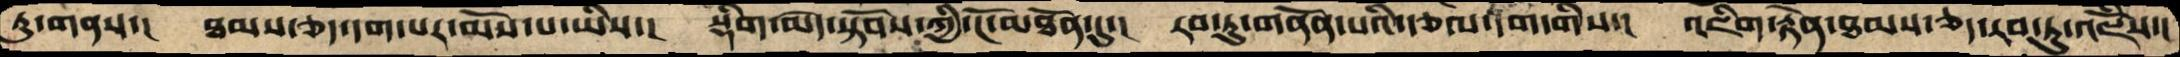ཏུ་གནས་།  ཐམས་ཅད་དག་པར་མོས་པ་ཡིས་།  སྡིག་མེད་སྟོབས་ཀྱི་ངོ་མཐོན་དུ་།  རབ་དུ་གནོན་པའི་རྩལ་དག་གིས་།  འཇིག་རྟེན་ཐམས་ཅད་རབ་ཏུ་འཇོཾས་།
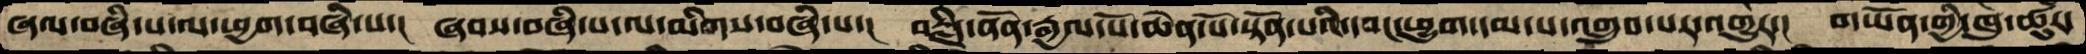ཞལ་བཞི་པ་ལ་ཕྱག་བཞི་པ་།  ཞབས་བཞི་པ་ལ་མིགས་བཞི་པ་།  བརྗིད་ནོན་རྒྱལ་པོ་ཆེན་པོ་སྟོན་པའི་དབང་ཕྱུག་དམ་པ་འགྲུབ་པར་འགྱུར་།  གཡོན་གྱི་ཁུ་ཚུར་
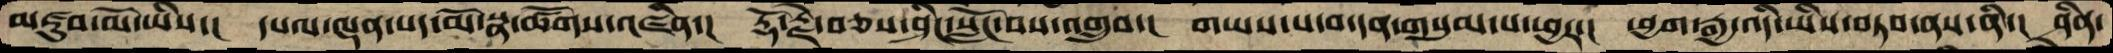མཛུབ་མོ་ཡིས་།  དཔལ་ལྡན་པད་མོ་སྣ་ཚོགས་འཛིན་།  རྡོ་རྗེ་བཅས་ཤིང་སློང་བས་འགྲུབ་།  གཡས་པ་བ་དན་གསུམ་པ་ཕྱར་།  ཕྱག་རྒྱ་འདི་ཡིས་བཏབ་ནས་ནི་།  ཤིན་
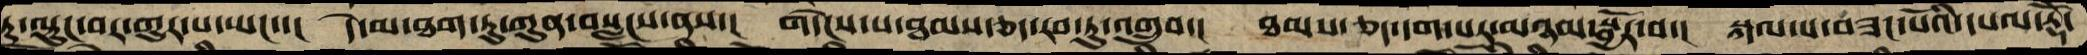ཏུ་ལྟུང་བར་གྱུར་པ་ཡང་་།  དེ་མ་ཐག་ཏུ་ཀུན་བསླངས་ནས་།  གདེངས་པ་ཐམས་ཅད་རབ་ཏུ་འགྲུབ་།  ཐམས་ཅད་དག་པར་མཉམ་སྦྱོར་བ་།  སྐལ་པ་བཟང་པོའི་དཔལ་རྡོེ་
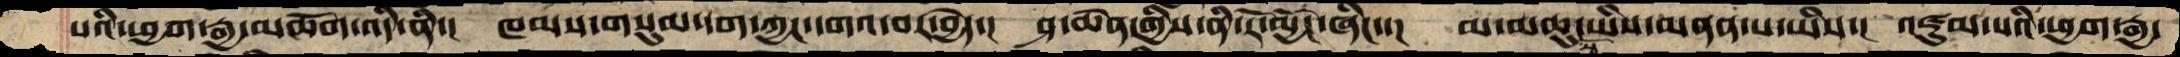པའི་ཕྱག་རྒྱ་མཆོག་འདི་ནི་། ཁམས་གསུམ་དག་ཀྱང་དགའ་བར་བྱེད་། ཤ་ཆེན་གྱིས་ནི་རོ་མྱོང་ཞིང་་། མ་མཆུ་སོ་ཡིས་མནན་པ་ཡིས་། འཛུམ་པའི་ཕྱག་རྒྱ་
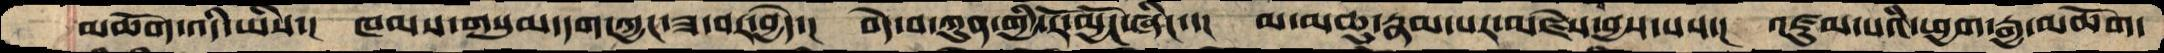མཆོག་འདི་ཡིས་།  ཁམས་གསུམ་དག་ཀྱང་ཟ་བར་བྱེད་།  བདེ་བ་ཀུན་གྱི་རོ་མྱོང་ཞིང་་།  མ་མཆུ་རྣམ་པར་མཛེས་བྱས་པས་།  འཛུམ་པའི་ཕྱག་རྒྱ་མཆོག་
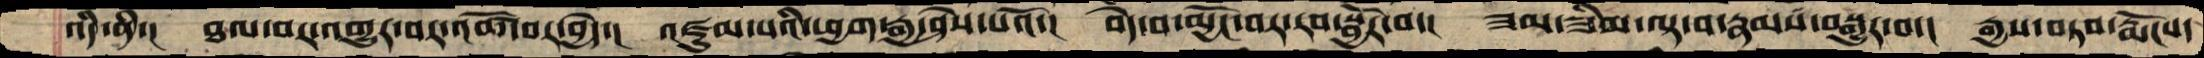འདི་ནི་།།  ཐལ་བར་འགྱུར་བར་འཚོ་བར་བྱེད་།  འཛུམ་པའི་ཕྱག་རྒྱ་ཤེས་པའོ་།  བདེ་བ་མྱོང་བར་རབ་སྦྱོར་བ་།  ཟམ་ཟིམ་ལྟ་བ་རྣམས་བསྒྱུར་བ་།  རྒྱས་བཏབ་རྨོངས་
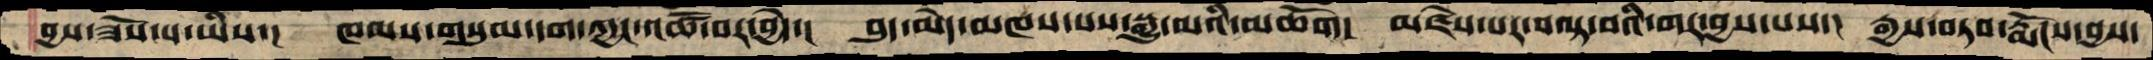བྱས་ཟོས་པ་ཡིས་།  ཁམས་གསུམ་དག་ཀྱང་འཚོ་བར་བྱེད་།  བུད་མེད་མཁས་པས་སྒྱུ་མའི་མཆོག།  མཛེས་པར་བལྟ་བའི་གར་བྱས་པས་།  རྒྱས་བཏབ་རྨོངས་བྱས་
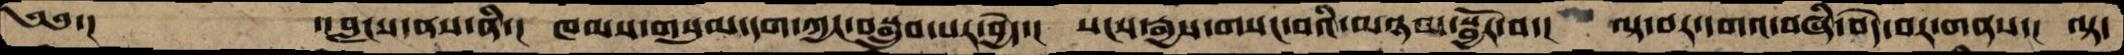༄༅་།   ་།བླངས་ནས་ནི་།  ཁམས་གསུམ་དག་ཀྱང་བསྒྲུབ་པར་བྱེད་།  སངས་རྒྱས་གསང་བའི་མཉམ་སྦྱོར་བ་།  ལྟ་བར་དགའ་བཞི་བདེ་བར་གནས་།  ལྟ་
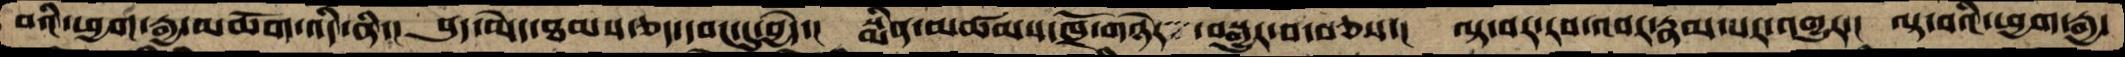བའི་ཕྱག་རྒྱ་མཆོག་འདི་ནི་།  བུད་མེད་ཐམས་ཅད་དབང་དུ་བྱེད་།  སྨིན་མཚམས་ཁྲོ་གཉེར  ་བསྒྱུར་བ་བཅས་།  ལྟ་བར་རབ་འབར་རྣམ་པར་འགྱུར་།  ལྟ་བའི་ཕྱག་རྒྱ་
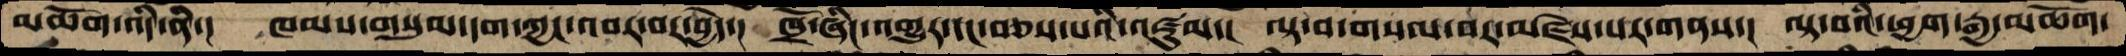མཆོག་འདི་ནི་།  ཁམས་གསུམ་དག་ཀྱང་འབར་བར་བྱེད་།  ཁྲོ་ཞིང་འགྱུར་དང་བཅས་པའི་འཛུམ་།  ལྟ་བ་གསལ་བར་མཛེས་པར་གནས་།  ལྟ་བའི་ཕྱག་རྒྱ་མཆོག་
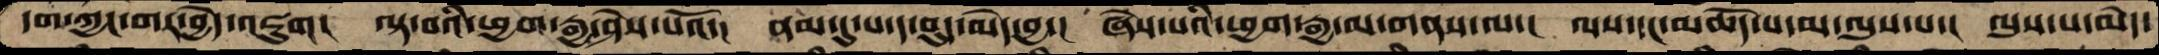དག་ཀྱང་གར་བྱེད་འཇུག།  ལྟ་བའི་ཕྱག་རྒྱ་ཤེས་པའོ་།  ནམ་དུ་པ་ད་བུད་མེད་བྱ་།  ཞེས་པའི་ཕྱག་རྒྱ་མ་གནས་ལ་།  འདས་དང་མཆོད་པ་མ་ལུས་པ་།  ལུས་པ་མེད་
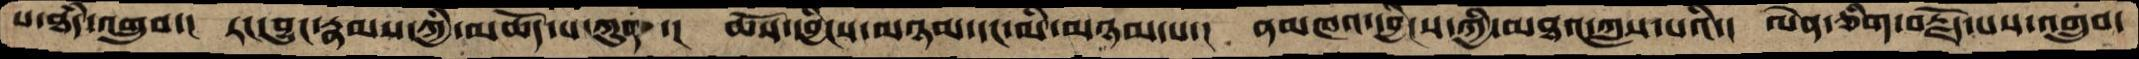པ་ཐཾད་འགྲུབ་།  རང་བྱུང་རྣམས་ཀྱི་མཆོད་པ་ཀུན་།  ཆོས་དབྱིངས་མཉམ་དང་མི་མཉམ་པ་།  ནམཁའ་དབྱིངས་ཀྱི་མཐའ་ཀླས་པའི་།  ལེན་ཅིག་བརྗོད་པས་འགྲུབ་
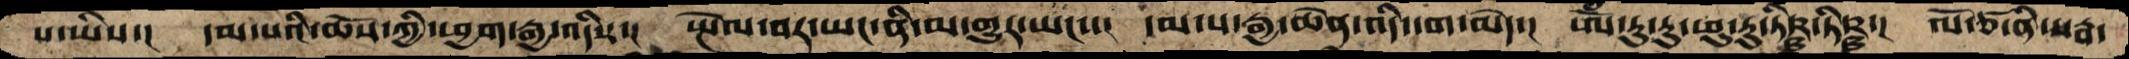པ་ཡིས་།  དམ་པའི་ཆོས་ཀྱི་ཕྱག་རྒྱ་འདིས་།  སྤེལ་བར་ཡང་ནི་མ་གྱུར་ཡངས་།  དམ་པ་རྒྱ་ཆེན་འདི་དག་མེད་།  ཨོཾ་རུ་རུ་ཕུ་རུ་ཏིཥྛ་ཏིཥྛ་།  ལོ་ཙ་ནི་སརྦ་
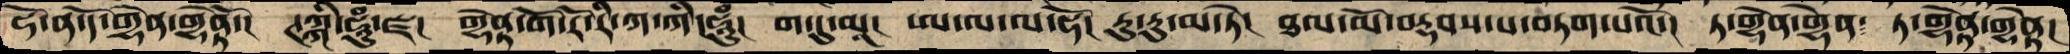ཧོ་ན་དོ་གྷེན་གྷེནྟོ་།  ཊཀྐི་ཧཱུཾ་ཛ།  གྷེནྟ་གོ་རོ་རི་ཀ་ཀི་ཧཱུཾ།  ག་དུ་མཱ།  ཨ་ལ་ལ་ཧོ།  རུ་རུ་མ་ཏེ་།  ཐལ་མོ་བརྡབས་པ་བཏག་པའོ་།  ཏ་གྷེན་གྷེན༴  ཏ་གྷེནྟ་གྷེནྟ།
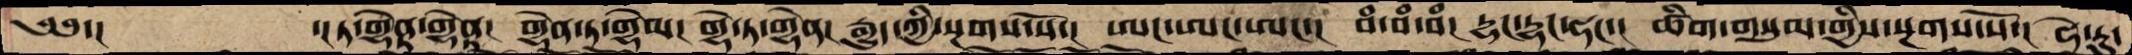༄༅་།    ་།གྷེནྟ་གྷེནྟ་།  གྷེན་ཏ་གྷེམ།   གྷེ་ཏ་གྷེན།  རྒྱུད་ཀྱི་སྔགས་སོ་།  ཨང་ཨང་ཨང་།  བཾ་བཾ་བཾ།  དྷང་དྷང་ཧང་།  ཚིག་གསུམ་གྱིས་སྔགས་སོ་།  ཧེ་རུ་
